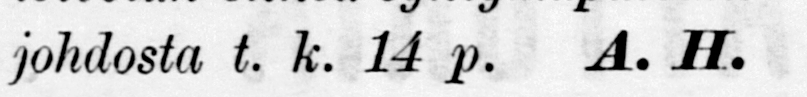johdosta t.k. 14 p. A. H.
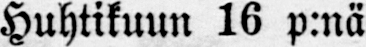Huhtikuun 16 p.nä,
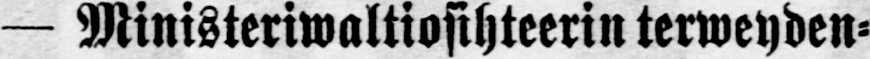— Ministeriwaltiosihteerin terweyden-
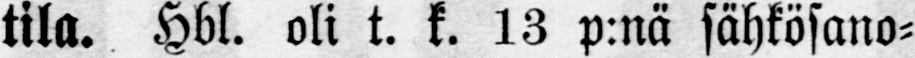tila. Hbl. oli t. k. 13 p:nä sähkösano-
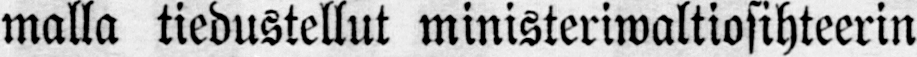malla tiedustellut ministeriwaltiosihteerin
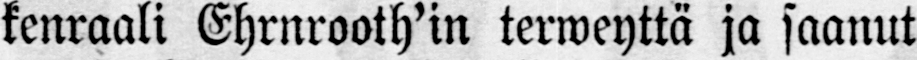kenraali Ehrnroothin terweyttä ja saanut
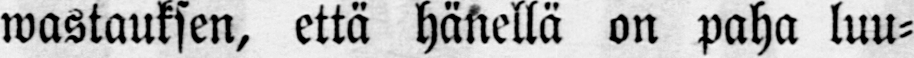wastauksen, että hänellä on paha luu-
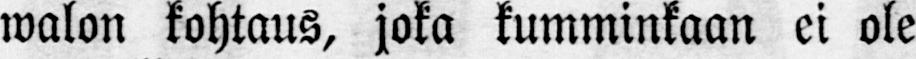walon kohtaus, joka kumminkaan ei ole
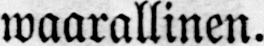wäärällinen.
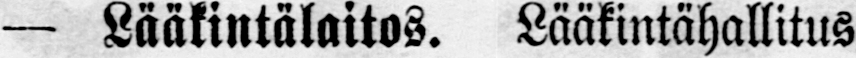— Lääkintälaitos. Lääkintähallitus
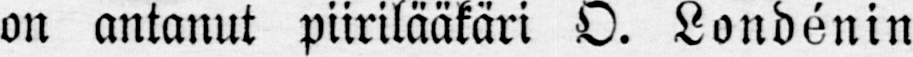on antanut piirilääkäri O. Londénin
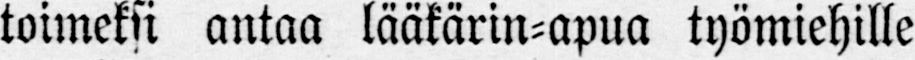toimeksi antaa lääkärin-apua työmiehille
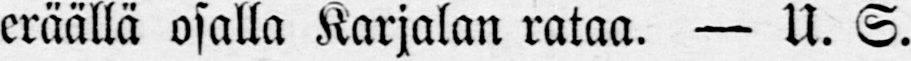eräällä osalla Karjalan rataa. — U. S.
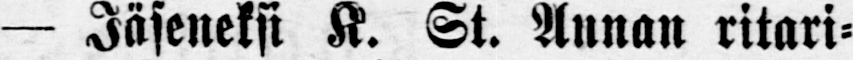— Jäseneksi K. St. Annan ritari-
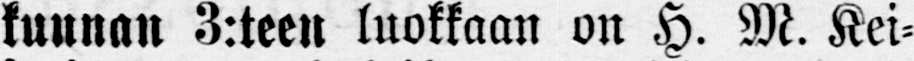kunnan 3:teen luokkaan on H. M. Kei-
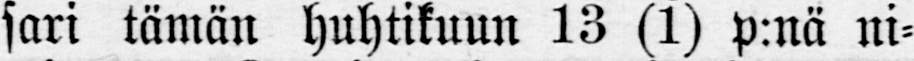sari tämän huhtikuun 13 (1) p:nä ni-
